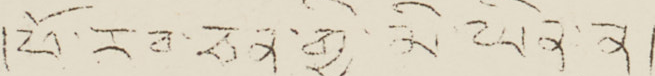།ཕོ་རབ་ཅན་གྱི་མི་ཡིན་ན།
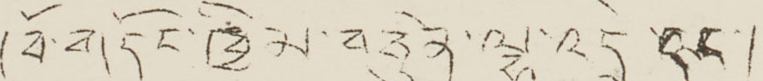།ཁོ་གདོང་ཁྱིམ་བཅིུན་ལྷ་འདྲེ་དང་།
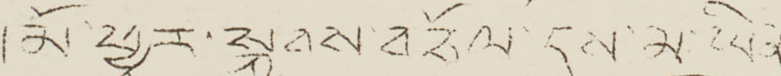།མོ་ཕྱྭར་སྐྱབས་མཅོལ་དུས་མ་ཡིན།
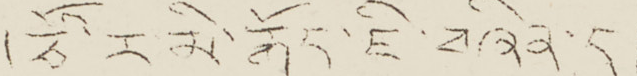།རྩོ་ར་མི་རྒོད་ཇི་བཞིན་དུ།
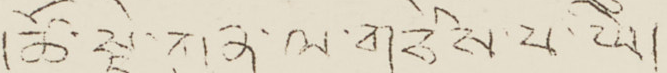།ཚོ་སྡེ་ཀུན་ལ་གརྩེས་པ་ཡི།
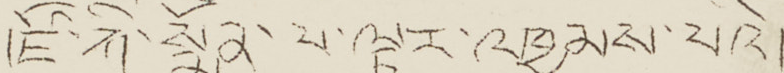།ཛོ་ཀི་སྨྱོན་པ་ལྟར་འཁྱམས་པའི།
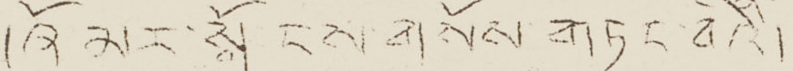།ཞོ མར་སྒོངས་གསོལ་གཏང་བའཻ།
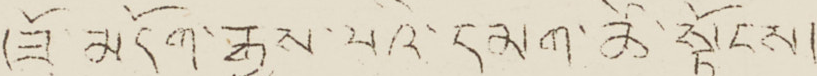(ཟོ་མདོག་རྒྱས་པའི་དམག་ཚེ་སྟོངས།
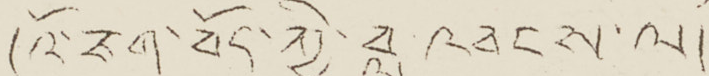(འོ་ཅག་བོད་ཀྱི་བླ་འབངས་ལ།
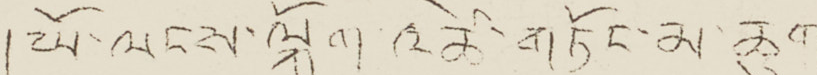།ཡོ་ལངས་ལྐོག་འཚེ་གཏོང་མ་ཆུག
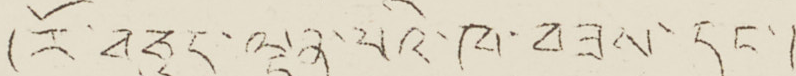(རོ་བཅུད་ལྡན་པའི་ཁ་བཟས་དང་།
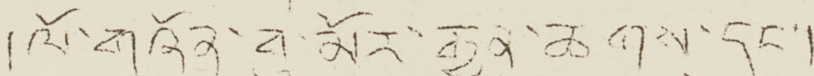།ལོ་གཞོན་བུ་མོར་རྒྱུན་ཆགས་དང་།
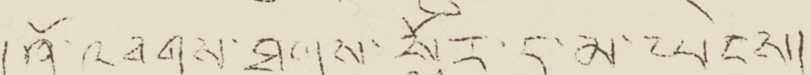།ཤོ་འབགས་ཐུགས་སྤྲོར་ད་མ་ཡེངས།
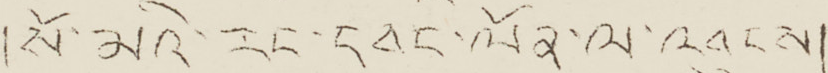།སོ་མའི་རང་དབང་ལོན་ལ་འབུངས།
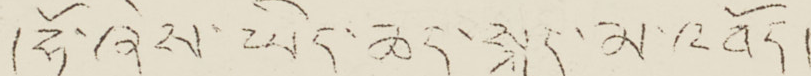།ཧོ་ཞེས་ཡིད་ཆད་སྐདུ་མ་འབོད།
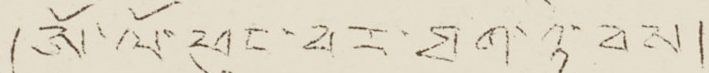།ཨོ་ལོ་ཕུང་བར་ཐག་ཉེ་བས།
